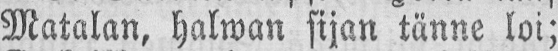Matalan, halwan sijan tänne loi;
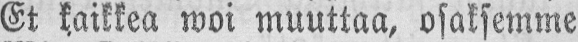Et kaikkea woi muuttaa, osaksemme
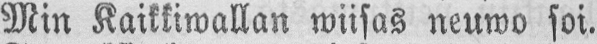Min Kaikkiwallan wiisas neuwo soi.
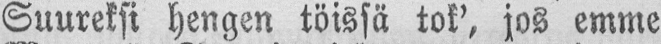Suureksi hengen töissä tok', jos emme
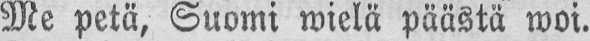Me petä, Suomi wielä päästä woi.
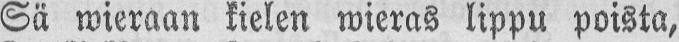Sä wieraan kielen wieras lippu poista,
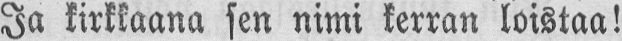Ja kirkkaana sen nimi kerran loistaa!
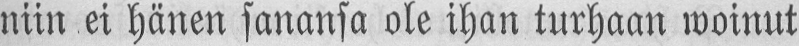niin ei hänen sanansa ole ihan turhaan woinut
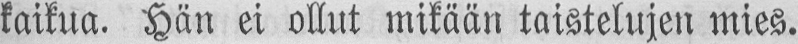kaikua. Hän ei ollut mikään taistelujen mies.
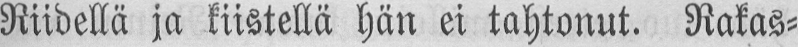Riidellä ja kiistellä hän ei tahtonut. Rakas-
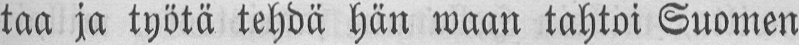taa ja työtä tehdä hän waan tahtoi Suomen
